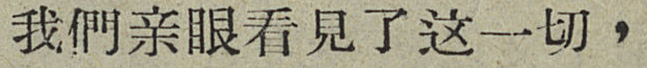我們亲眼看见了这一切，
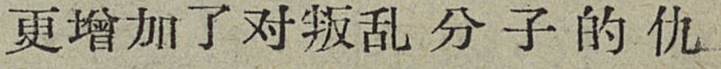更增加了对叛乱分子的仇
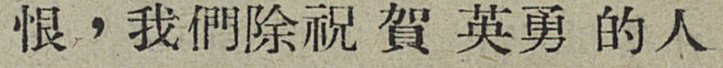恨，我們除祝賀英勇的人
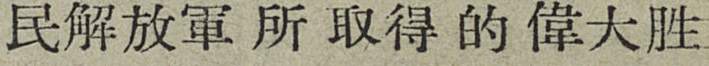民解放軍所取得的偉大胜
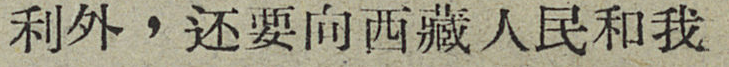利外，还要向西藏人民和我
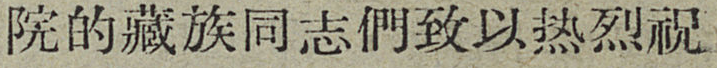院的藏族同志們致以热烈祝
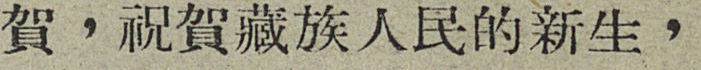賀，祝賀藏族人民的新生，
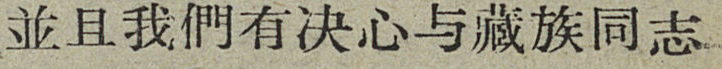並且我們有决心与藏族同志
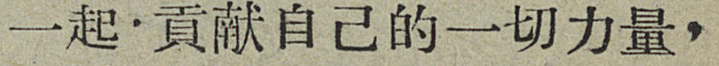一起，貢献自己的一切力量，
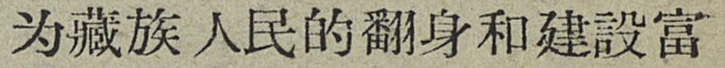为藏族人民的翻身和建設富
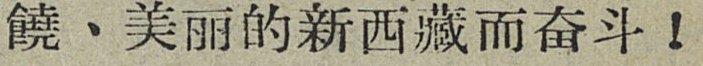饒、梅列的新西藏而奋斗！
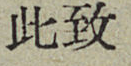此致
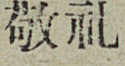敬礼
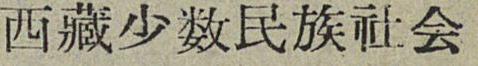西藏少数民族社会
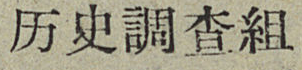历史調查組
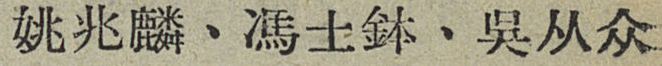姚兆麟、馮士鉢、吳从众
